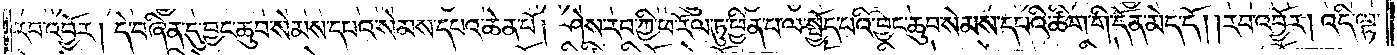རབ་འབྱོར། དེ་བཞིན་དུ་བྱང་ཆུབ་སེམས་དཔའ་སེམས་དཔའ་ཆེན་པོ། ཤེས་རབ་ཀྱི་ཕ་རོལ་ཏུ་ཕྱིན་པ་ལ་སྤྱོད་པའི་བྱང་ཆུབ་སེམས་དཔའི་ཚིག་གི་དོན་མེད་དོ། །རབ་འབྱོར། འདི་ལྟ་
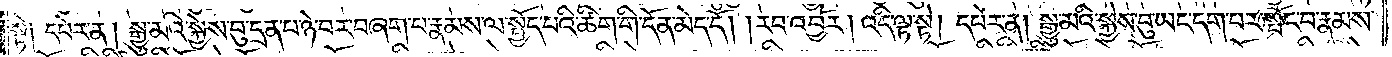སྟེ། དཔེར་ན། སྒྱུ་མའི་སྐྱེས་བུ་དྲན་པ་ཉེ་བར་བཞག་པ་རྣམས་ལ་སྤྱོད་པའི་ཚིག་གི་དོན་མེད་དོ། །རབ་འབྱོར། འདི་ལྟ་སྟེ། དཔེར་ན། སྒྱུ་མའི་སྐྱེས་བུ་ཡང་དག་པར་སྤོང་བ་རྣམས་
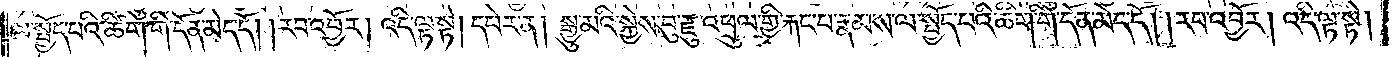ལ་སྤྱོད་པའི་ཚིག་གི་དོན་མེད་དོ། །རབ་འབྱོར། འདི་ལྟ་སྟེ། དཔེར་ན། སྒྱུ་མའི་སྐྱེས་བུ་རྫུ་འཕྲུལ་གྱི་རྐང་པ་རྣམས་ལ་སྤྱོད་པའི་ཚིག་གི་དོན་མེད་དོ། །རབ་འབྱོར། འདི་ལྟ་སྟེ།
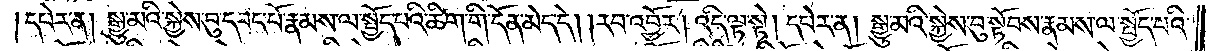དཔེར་ན། སྒྱུ་མའི་སྐྱེས་བུ་དབང་པོ་རྣམས་ལ་སྤྱོད་པའི་ཚིག་གི་དོན་མེད་དོ། །རབ་འབྱོར། འདི་ལྟ་སྟེ། དཔེར་ན། སྒྱུ་མའི་སྐྱེས་བུ་སྟོབས་རྣམས་ལ་སྤྱོད་པའི་
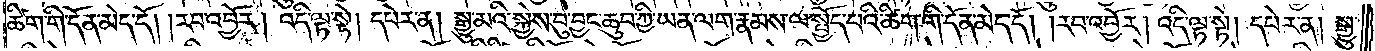ཚིག་གི་དོན་མེད་དོ། །རབ་འབྱོར། འདི་ལྟ་སྟེ། དཔེར་ན། །སྒྱུ་མའི་སྐྱེས་བུ་བྱང་ཆུབ་ཀྱི་ཡན་ལག་རྣམས་ལ་སྤྱོད་པའི་ཚིག་གི་དོན་མེད་དོ། །རབ་འབྱོར། འདི་ལྟ་སྟེ། དཔེར་ན། སྒྱུ་
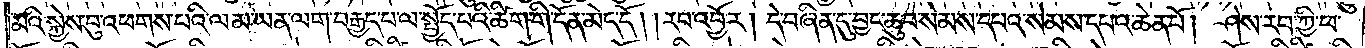མའི་སྐྱེས་བུ་འཕགས་པའི་ལམ་ཡན་ལག་བརྒྱད་པ་ལ་སྤྱོད་པའི་ཚིག་གི་དོན་མེད་དོ། །རབ་འབྱོར། དེ་བཞིན་དུ་བྱང་ཆུབ་སེམས་དཔའ་སེམས་དཔའ་ཆེན་པོ། ཤེས་རབ་ཀྱི་ཕ་
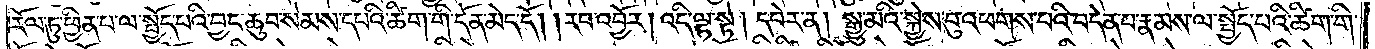རོལ་ཏུ་ཕྱིན་པ་ལ་སྤྱོད་པའི་བྱང་ཆུབ་སེམས་དཔའི་ཚིག་གི་དོན་མེད་དོ། །རབ་འབྱོར། འདི་ལྟ་སྟེ། དཔེར་ན། སྒྱུ་མའི་སྐྱེས་བུ་འཕགས་པའི་བདེན་པ་རྣམས་ལ་སྤྱོད་པའི་ཚིག་གི་
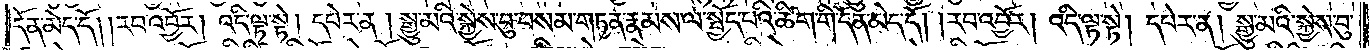དོན་མེད་དོ། །རབ་འབྱོར། འདི་ལྟ་སྟེ། དཔེར་ན། སྒྱུ་མའི་སྐྱེས་བུ་བསམ་གཏན་རྣམས་ལ་སྤྱོད་པའི་ཚིག་གི་དོན་མེད་དོ། །རབ་འབྱོར། འདི་ལྟ་སྟེ། དཔེར་ན། སྒྱུ་མའི་སྐྱེས་བུ་
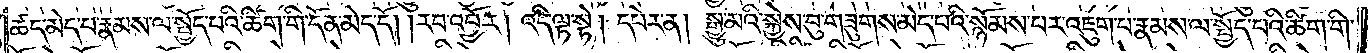ཚད་མེད་པ་རྣམས་ལ་སྤྱོད་པའི་ཚིག་གི་དོན་མེད་དོ། །རབ་འབྱོར། འདི་ལྟ་སྟེ། དཔེར་ན། སྒྱུ་མའི་སྐྱེས་བུ་གཟུགས་མེད་པའི་སྙོམས་པར་འཇུག་པ་རྣམས་ལ་སྤྱོད་པའི་ཚིག་གི་
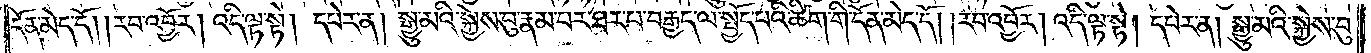དོན་མེད་དོ། །རབ་འབྱོར། འདི་ལྟ་སྟེ། དཔེར་ན། སྒྱུ་མའི་སྐྱེས་བུ་རྣམ་པར་ཐར་པ་བརྒྱད་ལ་སྤྱོད་པའི་ཚིག་གི་དོན་མེད་དོ། །རབ་འབྱོར། འདི་ལྟ་སྟེ། དཔེར་ན། སྒྱུ་མའི་སྐྱེས་བུ་
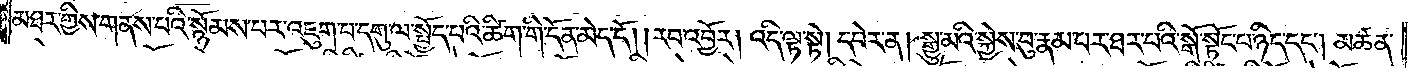མཐར་གྱིས་གནས་པའི་སྙོམས་པར་འཇུག་པ་དགུ་ལ་སྤྱོད་པའི་ཚིག་གི་དོན་མེད་དོ། །རབ་འབྱོར། འདི་ལྟ་སྟེ། དཔེར་ན། སྒྱུ་མའི་སྐྱེས་བུ་རྣམ་པར་ཐར་པའི་སྒོ་སྟོང་པ་ཉིད་དང༌། མཚན་
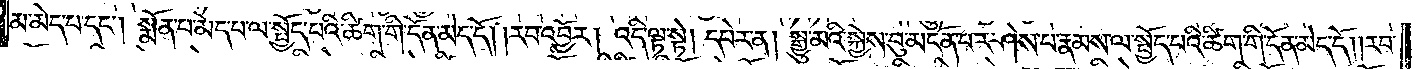མ་མེད་པ་དང༌། སྨོན་པ་མེད་པ་ལ་སྤྱོད་པའི་ཚིག་གི་དོན་མེད་དོ། །རབ་འབྱོར། འདི་ལྟ་སྟེ། དཔེར་ན། སྒྱུ་མའི་སྐྱེས་བུ་མངོན་པར་ཤེས་པ་རྣམས་ལ་སྤྱོད་པའི་ཚིག་གི་དོན་མེད་དོ། །རབ་
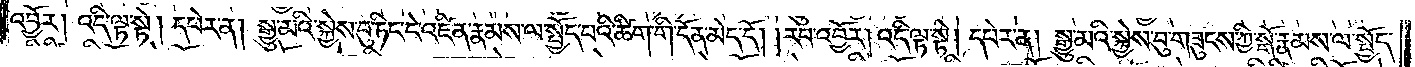འབྱོར། འདི་ལྟ་སྟེ། དཔེར་ན། སྒྱུ་མའི་སྐྱེས་བུ་ཏིང་ངེ་འཛིན་རྣམས་ལ་སྤྱོད་པའི་ཚིག་གི་དོན་མེད་དོ། །རབ་འབྱོར། འདི་ལྟ་སྟེ། དཔེར་ན། སྒྱུ་མའི་སྐྱེས་བུ་གཟུངས་ཀྱི་སྒོ་རྣམས་ལ་སྤྱོད་
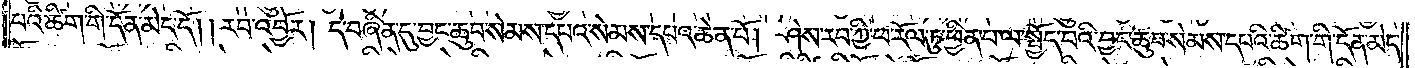པའི་ཚིག་གི་དོན་མེད་དོ། །རབ་འབྱོར། དེ་བཞིན་དུ་བྱང་ཆུབ་སེམས་དཔའ་སེམས་དཔའ་ཆེན་པོ། ཤེས་རབ་ཀྱི་ཕ་རོལ་ཏུ་ཕྱིན་པ་ལ་སྤྱོད་པའི་བྱང་ཆུབ་སེམས་དཔའི་ཚིག་གི་དོན་མེད་
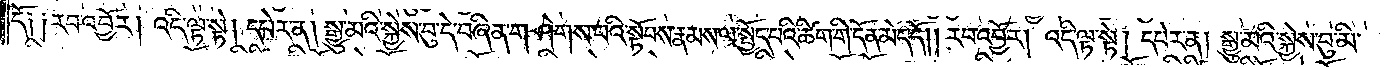དོ། །རབ་འབྱོར། འདི་ལྟ་སྟེ། དཔེར་ན། སྒྱུ་མའི་སྐྱེས་བུ་དེ་བཞིན་གཤེགས་པའི་སྟོབས་རྣམས་ལ་སྤྱོད་པའི་ཚིག་གི་དོན་མེད་དོ། །རབ་འབྱོར། འདི་ལྟ་སྟེ། དཔེར་ན། །སྒྱུ་མའི་སྐྱེས་བུ་མི་
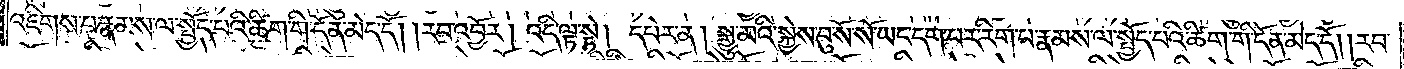འཇིགས་པ་རྣམས་ལ་སྤྱོད་པའི་ཚིག་གི་དོན་མེད་དོ། །རབ་འབྱོར། འདི་ལྟ་སྟེ། དཔེར་ན། སྒྱུ་མའི་སྐྱེས་བུ་སོ་སོ་ཡང་དག་པར་རིག་པ་རྣམས་ལ་སྤྱོད་པའི་ཚིག་གི་དོན་མེད་དོ། །རབ་
